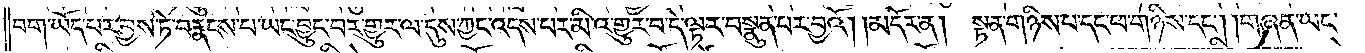བག་ཡོད་པར་བྱས་ཏེ་བརྣངས་པ་ཡང་བྱུང་བར་གྱུར་ལ་དུས་ཀྱང་འདས་པར་མི་འགྱུར་བ་དེ་ལྟར་བསྣུན་པར་བྱའོ། །མདོར་ན། སྟན་གཉིས་པ་དང་ཕ་གཉིས་དང༌། །གཞན་ཡང་
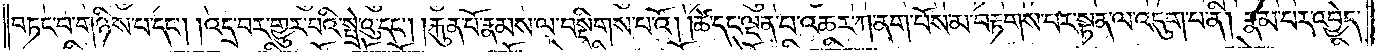བཏང་བ་གཉིས་པ་དང༌། །འདྲ་བར་གྱུར་པའི་སྤྲེའུ་དང༌། །རྐུན་པོ་རྣམས་ལ་བསྡིགས་པའོ། །ཚེ་དང་ལྡན་པ་འཆར་ཀ་ནག་པོས་མ་བརྟགས་པར་སྟན་ལ་འདུག་པ་ནི། རྣམ་པར་འབྱེད་
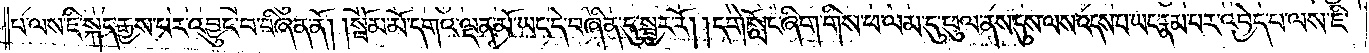པ་ལས་ཇི་སྐད་རྒྱས་པར་འབྱུང་བ་བཞིན་ནོ། །སྦོམ་མོ་དགའ་ལྡན་མོ་ཡང་དེ་བཞིན་དུ་སྦྱར་རོ། །དགེ་སློང་ཞིག་གིས་ཕ་ལམ་དུ་ཕུལ་ནས་དུས་ལས་འདས་པ་ཡང་རྣམ་པར་འབྱེད་པ་ལས་ཇི་
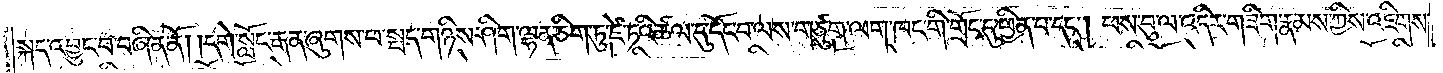སྐད་འབྱུང་བ་བཞིན་ནོ། །དགེ་སློང་རྒན་ཞུགས་པ་སྤད་གཉིས་ཤིག་ལྷན་ཅིག་ཏུ་ཛེ་ཏའི་ཚལ་དུ་དོང་བ་ལས་གཙུག་ལག་ཁང་གི་གྲོང་དུ་ཕྱིན་པ་དང༌། ཕས་བུ་ལ་འདིར་གཟིག་རྣམས་ཀྱིས་འཇིགས་
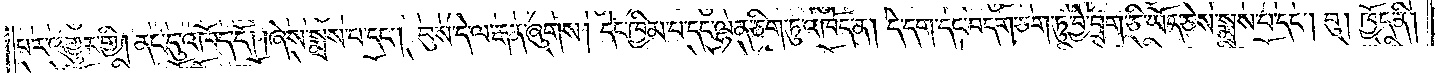པར་འགྱུར་གྱི། ནང་དུ་འཁོད་དོ། །ཞེས་སྨྲས་པ་དང༌། བུས་དེ་ལ་རྒན་ཞུགས། དེང་ཁྱིམ་པ་དང་ལྷན་ཅིག་ཏུ་འཁོད་ན། དེ་དག་དང་བདག་ཅག་ཏུ་བྱེ་བྲག་ཅི་ཡོད་ཅེས་སྨྲས་པ་དང༌། བུ། ཁྱོད་ནི།
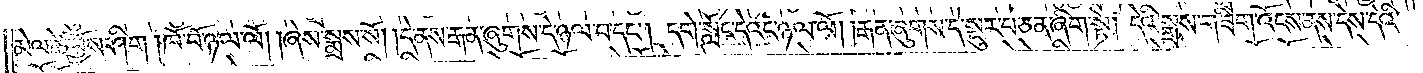མེལ་ཚེ་བྱོས་ཤིག །ཁོ་བོ་ཉལ་ལོ། །ཞེས་སྨྲས་སོ། །དེ་ནས་རྒན་ཞུགས་དེ་ཉལ་བ་དང༌། དགེ་སློང་དེའང་ཉལ་ལོ། །རྒན་ཞུགས་དེ་སྡུར་པ་ཅན་ཞིག་སྟེ། དེའི་སྒྲས་གཟིག་འོངས་ནས་དེས་དེའི་
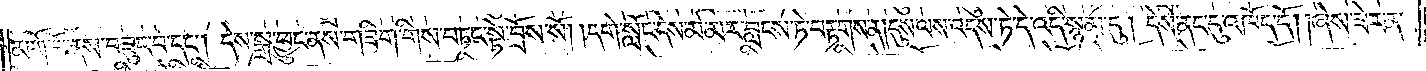མགོ་བོ་ནས་བཟུང་བ་དང༌། དེས་སྒྲ་ཕྱུང་ནས་གཟིག་གིས་བཏང་སྟེ་བྲོས་སོ། །དགེ་སློང་དེས་མེ་མར་བླངས་ཏེ་བརྟགས་ན། དུས་ལས་འདས་ཏེ་དེ་འདི་སྙམ་དུ། དེས་ནང་དུ་འཁོད་དོ། །ཞེས་ཟེར་ན་
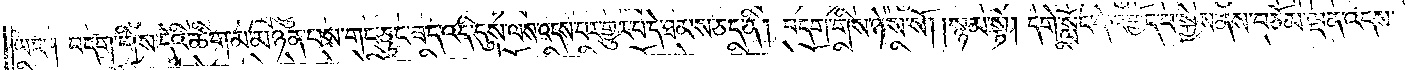ཡང༌། བདག་གིས་དེའི་ཚིག་མ་མཉན་པས་གང་ཅུང་ཟད་འདི་དུས་ལས་འདས་པར་གྱུར་པ་དེ་ཐམས་ཅད་ནི། བདག་གིས་ཉེས་སོ། །སྙམ་སྟེ། དགེ་སློང་དེ་འགྱོད་པ་སྐྱེས་ནས་བཅོམ་ལྡན་འདས་
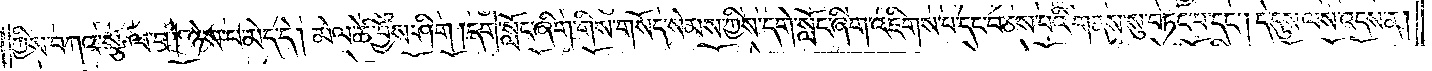ཀྱིས་བཀའ་སྩལ་པ། ཉེས་པ་མེད་དེ། མེལ་ཚེ་བྱོས་ཤིག །དགེ་སློང་ཞིག་གིས་གསོད་སེམས་ཀྱིས་དགེ་སློང་ཞིག་འཇིགས་པ་དང་བཅས་པའི་གནས་སུ་བཏང་བ་དང༌། དེ་དུས་ལས་འདས་ན།
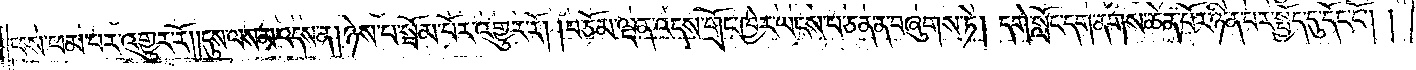ཕས་ཕམ་པར་འགྱུར་རོ། །དུས་ལས་མ་འདས་ན། ཉེས་པ་སྦོམ་པོར་འགྱུར་རོ། །བཅོམ་ལྡན་འདས་གྲོང་ཁྱེར་ཡངས་པ་ཅན་ན་བཞུགས་ཏེ། དགེ་སློང་དག་ནགས་ཆེན་པོར་ཉིན་པར་སྤྱོད་དུ་དོང་ངོ༌། །
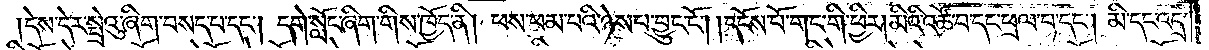དེས་དེར་སྤྲེའུ་ཞིག་བསད་པ་དང༌། དགེ་སློང་ཞིག་གིས་ཁྱོད་ནི། ཕས་ཕམ་པའི་ཉེས་པ་བྱུང་ངོ༌། །དངོས་པོ་གནག་གི་ཕྱིར། མིའི་འཚོ་བ་དང་ཕྲལ་བ་དང༌། མི་དང་འདྲ་
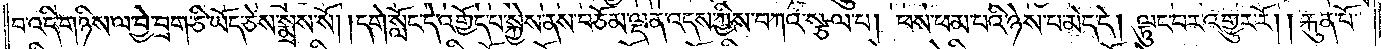བ་འདི་གཉིས་ལ་བྱེ་བྲག་ཅི་ཡོད་ཅེས་སྨྲས་སོ། །དགེ་སློང་དེ་འགྱོད་པ་སྐྱེས་ནས་བཅོམ་ལྡན་འདས་ཀྱིས་བཀའ་སྩལ་པ། ཕས་ཕམ་པའི་ཉེས་པ་མེད་དེ། ལྟུང་བར་འགྱུར་རོ། །རྐུན་པོ་
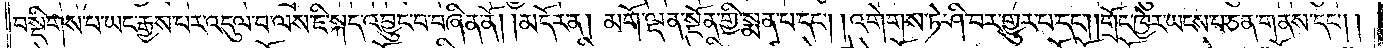བསྡིགས་པ་ཡང་རྒྱས་པར་འདུལ་བ་ལས་ཇི་སྐད་འབྱུང་བ་བཞིན་ནོ། །མདོར་ན། མགོ་ལྡན་སྔོན་གྱི་སྨན་པ་དང༌། །འགེགས་ཏེ་ཤི་བར་གྱུར་པ་དང༌། །གྲོང་ཁྱེར་ཡངས་པ་ཅན་གནས་དང༌། །
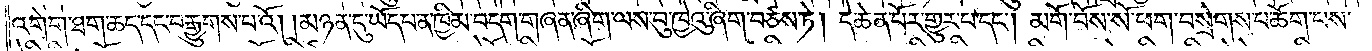འགེག་ཐག་ཆད་དང་བརྒྱུགས་པའོ། །མཉན་དུ་ཡོད་པ་ན་ཁྱིམ་བདག་གཞན་ཞིག་ལས་བུ་ཁྱེའུ་ཞིག་བཙས་ཏེ། དེ་ཆེན་པོར་གྱུར་པ་དང༌། མགོ་བོས་སོ་ཕག་བསྲེགས་པ་ཆོག་པས་
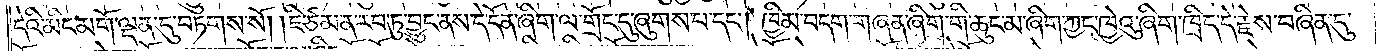དེའི་མིང་མགོ་ལྡན་དུ་བཏགས་སོ། །ཇི་ཙམ་ན་རབ་ཏུ་བྱུང་ནས་དེ་དོན་ཞིག་ལ་གྲོང་དུ་ཞུགས་པ་དང༌། ཁྱིམ་བདག་གཞན་ཞིག་གི་ཆུང་མ་ཞིག་ཀྱང་ཁྱེའུ་ཞིག་ཁྲིད་དེ་རྗེས་བཞིན་དུ་
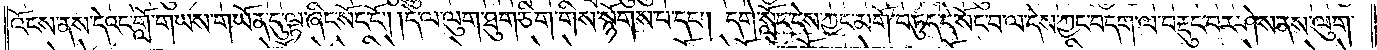འོངས་ནས་དེའང་གློ་གཡས་གཡོན་དུ་ལྟ་ཞིང་སོང་ངོ༌། །དེ་ལ་ལུག་ཐུག་ཅིག་གིས་སྙོགས་པ་དང༌། དགེ་སློང་དེས་ཀྱང་མགོ་བཏུད་དེ་སོང་བ་ལ་དེས་ཀྱང་བདག་ལ་བརྡུང་བར་ཤེས་ནས་ལུག་
